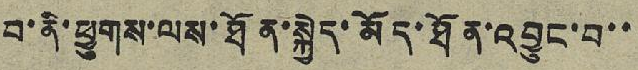བ་ནི་ཕྱུགས་ལས་ཐོན་སྐྱེད་མོད་ཐོན་འབྱུང་བ་་
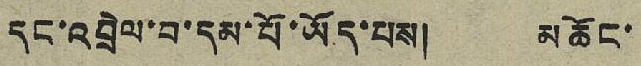དང་འབྲེལ་བ་དམ་པོ་ཡོད་པས། མཆོང་
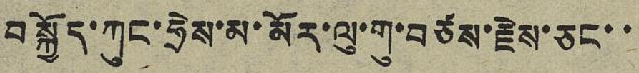བསྐྱོད་ཀུང་ཧྲེས་མ་མོར་ལུ་གུ་བཙས་རྗེས་ཅང་་
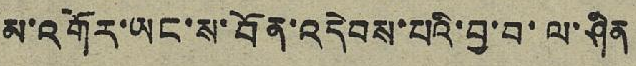མ་འགོར་ཡང་ས་བོན་འདེབས་པའི་བྱ་བ་ལ་ཤིན
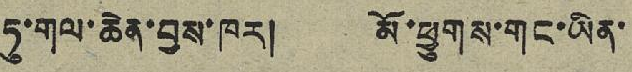ཏུ་གལ་ཆེན་བྱས་ཁར། མོ་ཕྱུགས་གང་ཡིན་
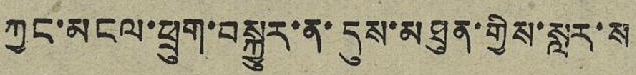ཀྱང་མངལ་ཕྲུག་བསྐྱུར་ན་དུས་མཐུན་གྱིས་སླར་ས
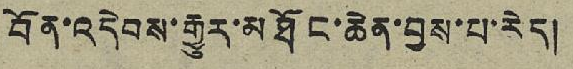བོན་འདེབས་རྒྱུར་མཐོང་ཆེན་བྱས་པ་རེད།
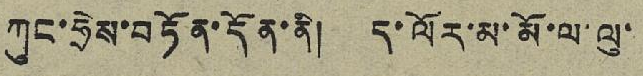ཀུང་ཧྲེས་བཏོན་དོན་ནི། ད་ལོར་མ་མོ་ལ་ལུ་
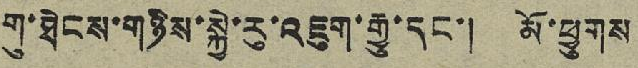གུ་ཐེངས་གཉིས་སྐྱེ་རུ་འཇུག་རྒྱུ་དང་། མོ་ཕྱུགས
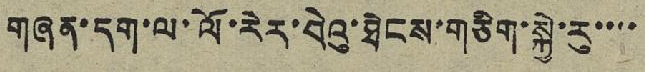གཞན་དག་ལ་ལོ་རེར་བེའུ་ཐེངས་གཅིག་སྐྱེ་རུ་་་་
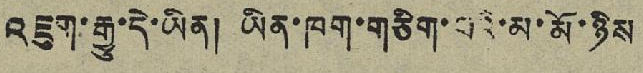འཇུག་རྒྱུ་དེ་ཡིན། ཡིན་ཁག་གཅིག་པའི་མ་མོ་ཉིས
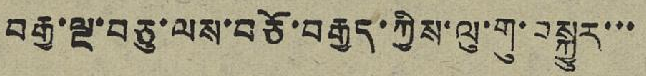བརྒྱ་ལྔ་བཅུ་ལས་བཅོ་བརྒྱ་ཀྱིས་ལུ་གུ་བསྐྱུར་་་
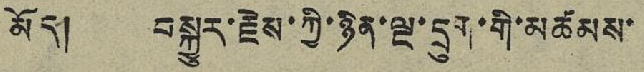མོད། བསྐྱུར་རྗེས་ཀྱི་ཉིན་ལྔ་དྲུག་གི་མཚམས་
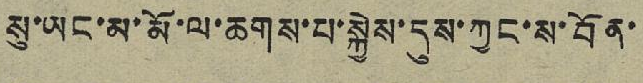སུ་ཡང་མ་མོ་ལ་ཆགས་པ་སྐྱེས་དུས་ཀྱང་ས་བོན་
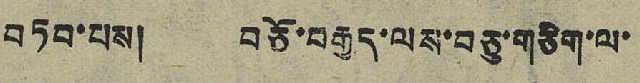བཏབ་པས། བཅོ་བརྒྱད་ལས་བཅུ་གཅིག་ལ་
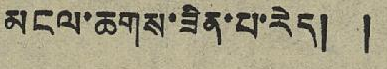མངལ་ཆགས་ཟིན་པ་རེད། །
